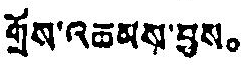གྲོས་འཆམས་བྱས。
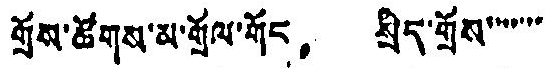གྲོས་ཚོགས་མ་གྲོལ་གོང， སྲིད་གྲོས་་་་་་་
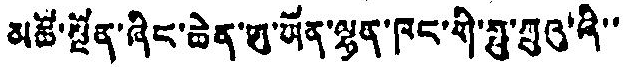མཚོ་སྔོན་ཞིང་ཆེན་ཨུ་ཡོན་ལྷན་ཁང་གི་ཧྥུ་ཀྲུའུ་ཞི་་
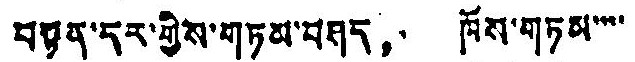བསྟན་དར་གྱིས་གཏམ་བཤད， ཁོས་གཏམ་་་་
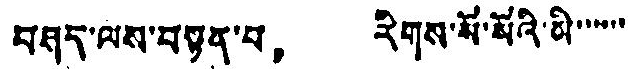བཤད་ལས་བསྟན་པ， རིགས་སོ་སོའི་མི་་་་་་
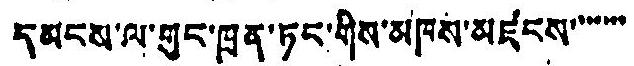དམངས་ལ་གུང་ཁྲན་ཏང་གིས་མཁས་མཛངས་་་་་་་
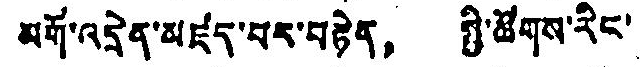མགོ་འདྲེན་མཛད་པར་བརྟེན， སྤྱི་ཚོགས་རིང་
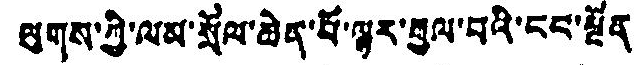ལུགས་ཀྱི་ལམ་སྲོལ་ཆེན་པོ་ལྟར་རྒྱལ་བའི་ངང་སྔོན
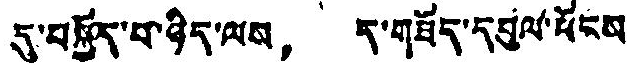དུ་བསྐྱོད་པ་ཉིད་ལས， ད་གཟོད་དབུལ་ཕོངས
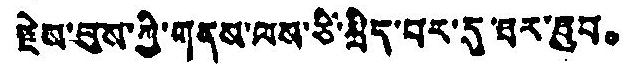རྗེས་བུས་ཀྱི་གནས་ལས་ཅི་སྲིད་བར་དུ་ཐར་ཐུབ。
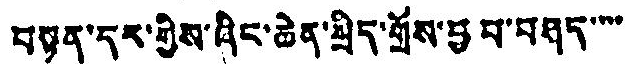བསྟན་དར་གྱིས་ཞིང་ཆེན་སྲིད་གྲོས་བྱ བ་བཤད་་་་་
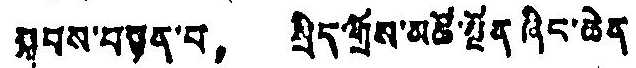སྐབས་བསྟན་པ， སྲིད་གྲོས་མཚོ་སྔོན ཞིང་ཆེན་
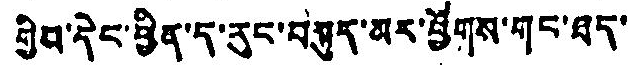གྱིབ་དེང་ཕྱིན་ད་རུང་བསྐུད་མར་ཕྱོགས་གང་ཐད་
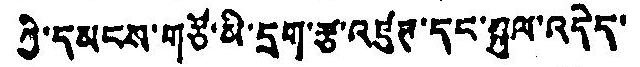ཀྱི་དམངས་གཙོ་མི་དྲག་རྩ་འཛུཊ་དང་མུལ་འདེད་
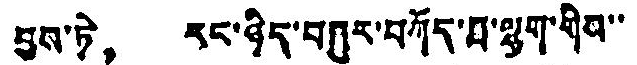བྱས་ཏེ， རང་ཉིད་བཀུར་བཀོད་པ་ལྷག་གིས་་
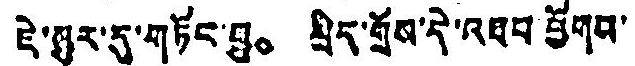ཇེ་མུར་དུ་གཏོང་རྒྱུ。 སྲིད་གྲོས་དེ་འཐབ ཕྱོགས་
